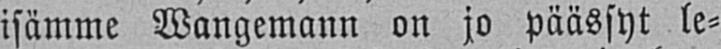isämme Wangemann on jo päässyt le-
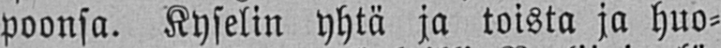poonsa. Kyselin yhtä ja toista ja huo-
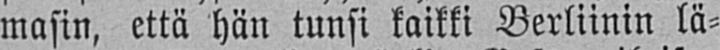masin, että hän tunsi kaikki Berliinin lä-
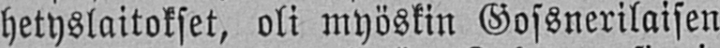hetyslaitokset, oli myöskin Gossnerilaisen
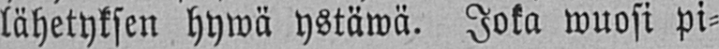lähetyksen hywä ystäwä. Joka wuosi pi-
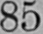85
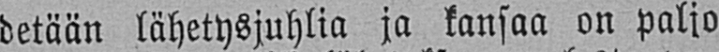detään lähetysjuhlia ja kansaa on paljo
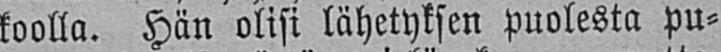koolla. Hän olisi lähetyksen puolesta pu-
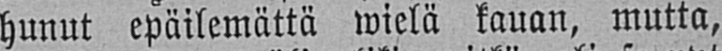hunut epäilemättä wielä kauan, mutta,
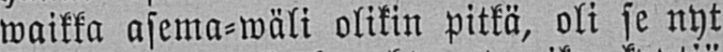waikka asema-wäli olikin pitkä, oli se nyt
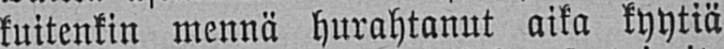kuitenkin mennä hurahtanut aika kyytiä
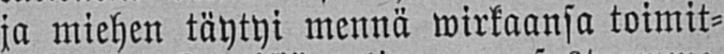ja miehen täytyi mennä wirkaansa toimit-
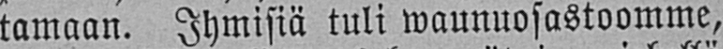tamaan. Ihmisiä tuli waunuosastoomme,
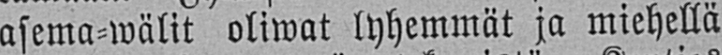asema-wälit oliwat lyhemmät ja miehellä
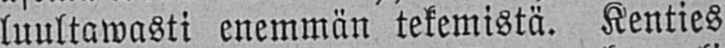luultawasti enemmän tekemistä. Kenties
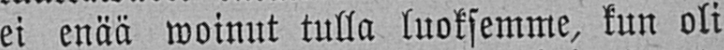ei enää woinut tulla luoksemme, kun oli
